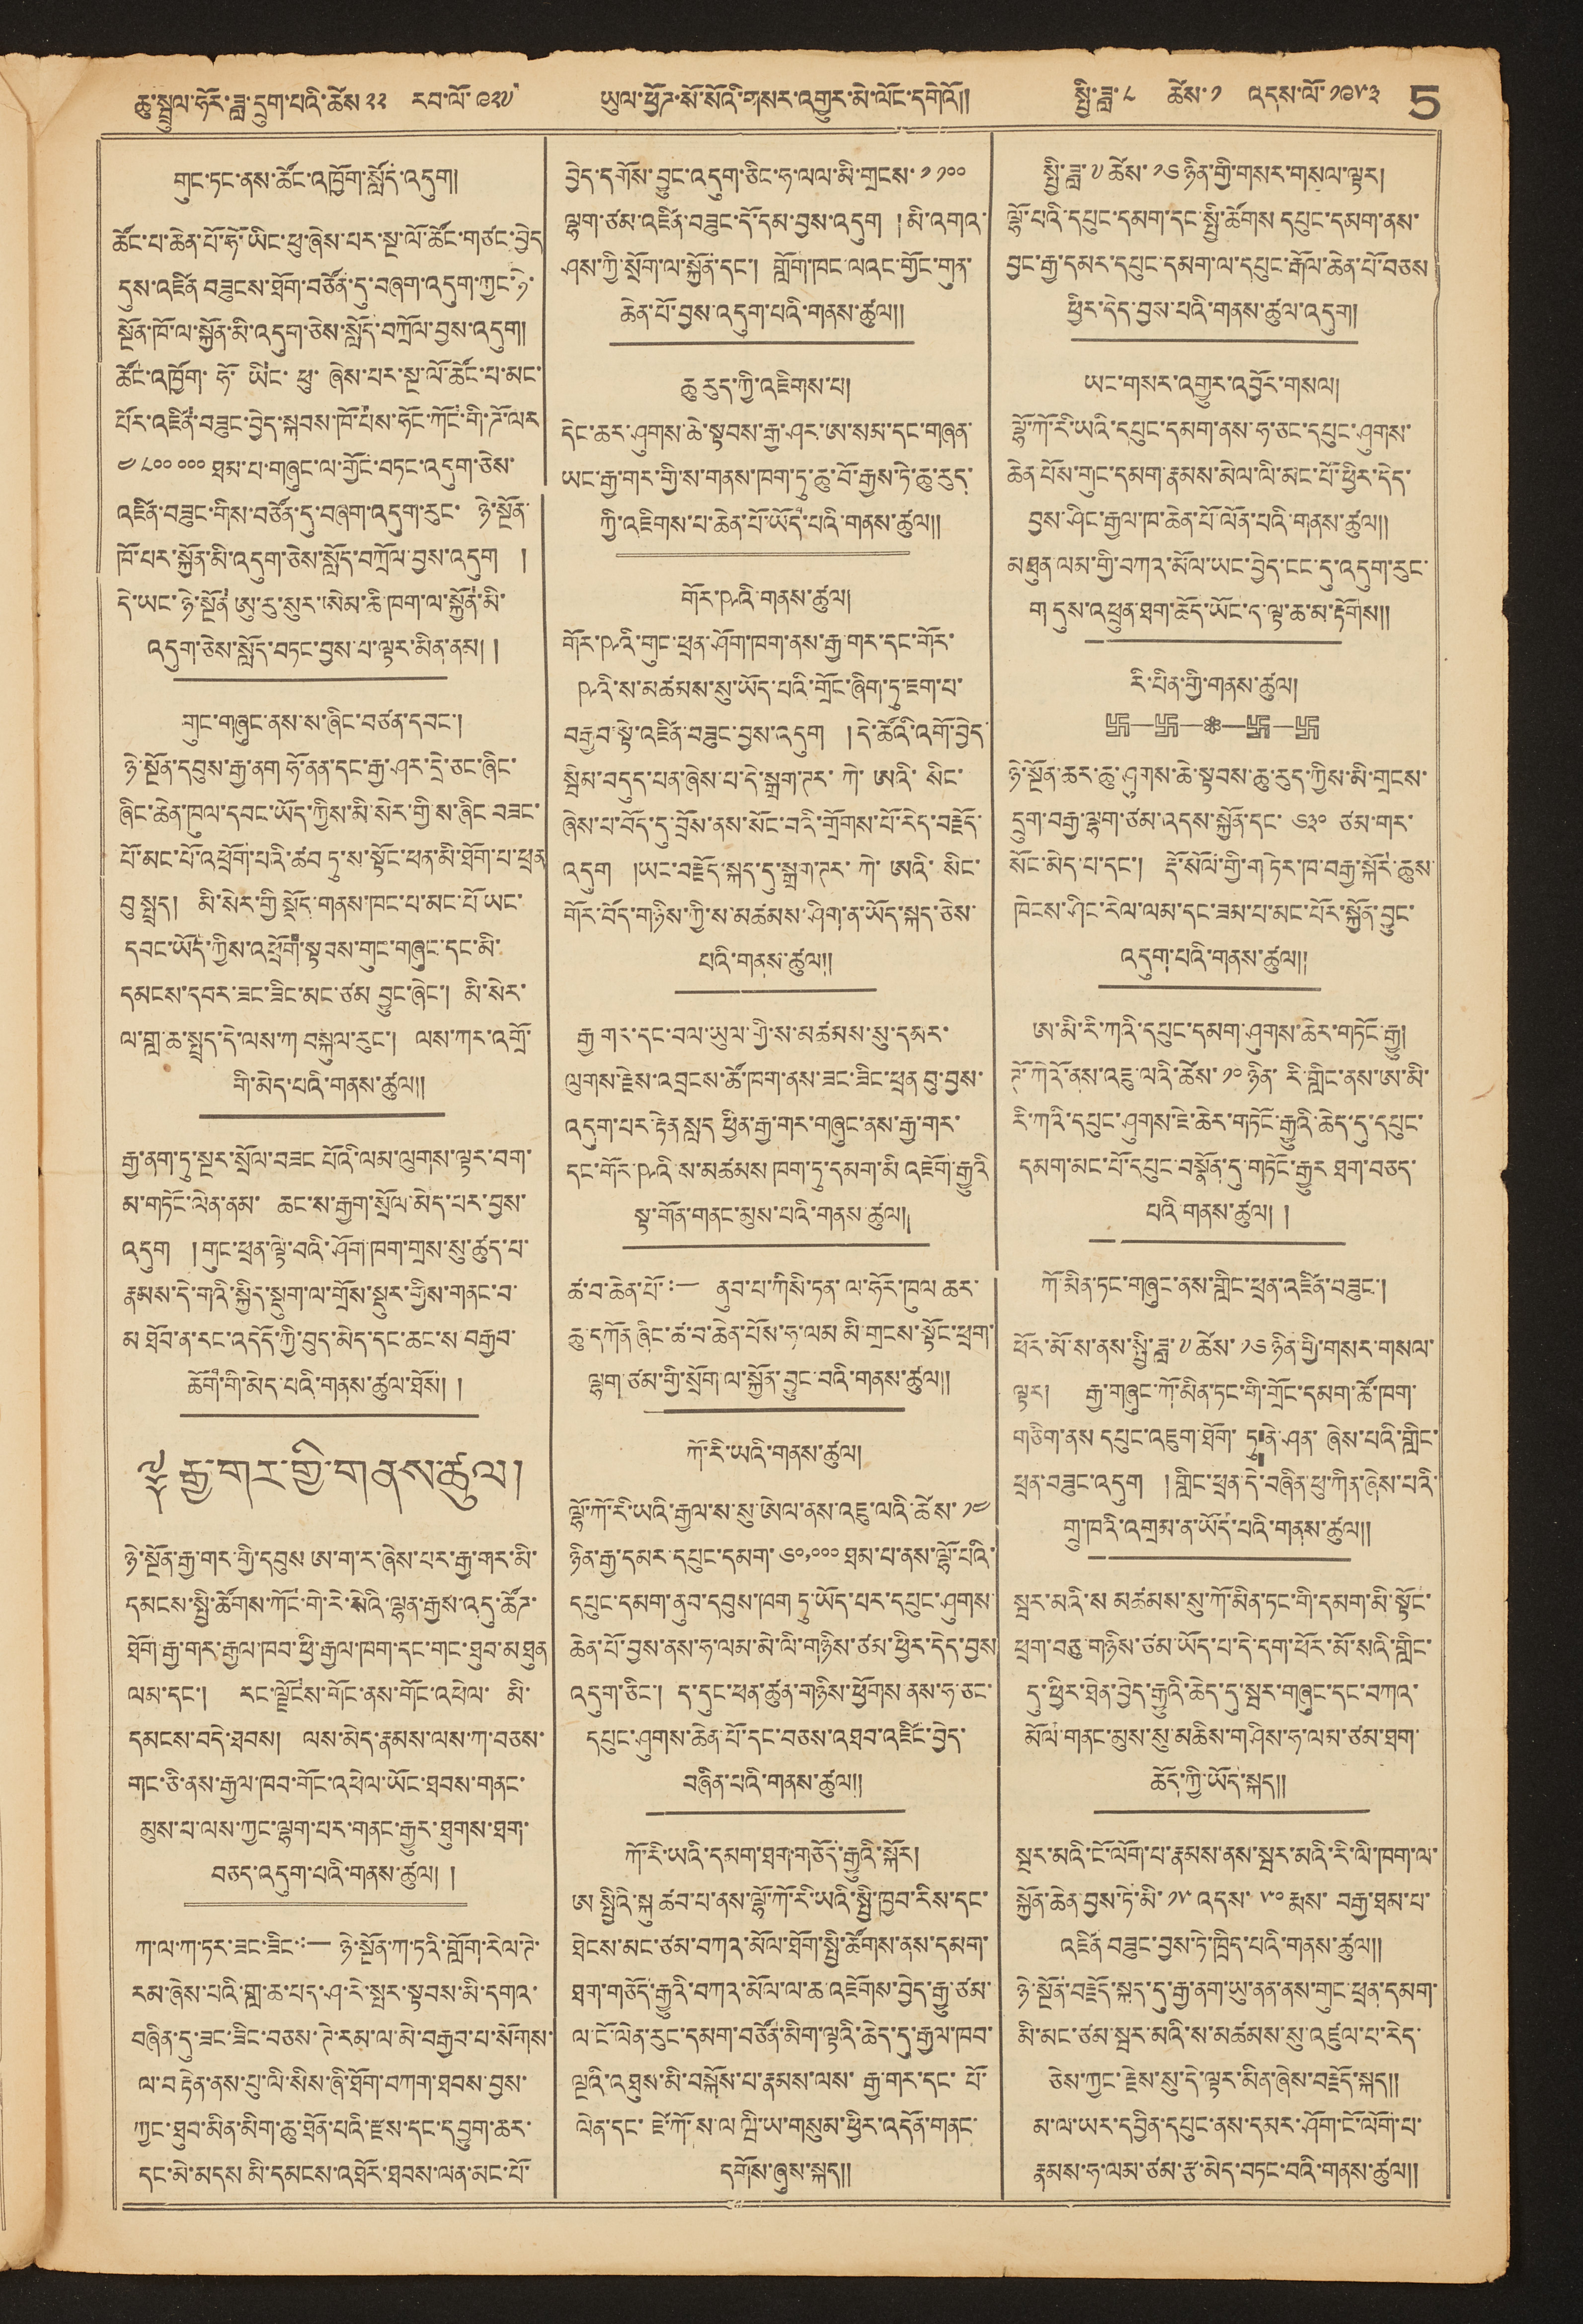ཆུ་སྦྲུལ་ཧོར་ཟླ་དྲུག་པའི་ཚེས་ ༢༢ རབ་ལོ་ ༩༢༧ ཡུལ་ཕྱོཌ་སོ་སོའི་གསར་འགྱུར་མེ་ལོང་དགེའོ།། སྤྱི་ཟླ་༨ ཚེས ༡ འདས་ལོ་༡༩༥༣ 5
གུང་ཏང་ནས་ཚོང་འཁྱོག་སློད་འདུག།།
ཚོང་པ་ཆེན་པོ་ཧོ་ཡིང་ཕུ་ཞེས་པར་སྔ་ལོ་ཚོང་གཙང་བྱེད
དུས་འཛིན བཟུངས་ཐོག་བཙོན་དུ་བཞག་འདུག་ཀྱང་ཉེ་
སྔོན་ཁོ་ལ་སྐྱོན་མི་འདུག་ཅེས་སློད་བཀྲོལ་བྱས་འདུག།།
ཚོང་འཁྱོག་ཧོ་ཡིང་ཕུ་ཞེས་པར་སྔ་ལོ་ཚོང་པ་མང་
པོར་འཛིན་བཟུང་བྱེད་སྐབས་ཁོ་པས་ཧོང་ཀོང་གི་ཌི་ལར
༤༨༠༠༠༠༠ཐམ་པ་གཞུང་ལ་གྱོང་བཏང་འདུག་ཅེས་
འཛིན་བཟུང་གིས་བཙོན་དུ་བཞུག་འདུག་རུང་ ཉེ་སྔོན་
ཁོ་པར་སྐྱོན་མི་འདུག་ཅེས་སློད་བཀྲོལ་བྱས་འདུག །
དེ་ཡང་ཉེ་སྔོན ཨུ་རུ་སུར་ཨེམ་ཆི་ཁག་ལ་སྐྱོན་མི་
འདུག་ཅེས་སློད་བཏང་བྱས་པ་ལྟར་མིན་ནམ།།
གུང་གཞུང་ནས་ས་ཞིང་བཙན་དབང་།
ཉེ་སྔོན་དབུས་རྒྱ་ནག ཧོ་ནན་དང་རྒྱ་ཤར་དྲེ་ཅང་ཞིང་
ཞིང་ཆེན་ཁུལ་དབང་ཡོད་ཀྱིས་མི་སེར་གྱི་ས་ཞིང་བཟང་
པོ་མང་པོ་འཕྲོག་པའི་ཚབ ཏུ་ས་སྟོང་ཕན་མི་ཐོག་པ་ཕྲན
བུ་སྤྲད། མི་སེར་གྱི སྡོད་གནས་ཁང་པ་མང་པོ ཡང་
དབང་ཡོད་ཀྱིས་འཕྲོག་སྟབས་གུང་གཞུང་དང་མི་
དམངས་དབར་ཟང་ཟིང་མང་ཙམ བྱུང་ཞེང་། མི་སེར་
ལ་གླ་ཆ་སྤྲད་དེ་ལས་ཀ བསྐུལ་རུང་། ལས་ཀར་འགྲོ་
གི་མེད་པའི་གནས་ཚུལ།།
རྒྱ་ནག་ཏུ་སྔར་སྲོལ་བཟང པོའི་ལམ་ལུགས་ལྟར་བག་
མ་གཏོང་ལེན་ནམ་ ཆང་ས་རྒྱག་སྲོལ་མེད་པར་བྱས་
འདུག །གུང་ཕྲན་ལྟེ་བའི་ཤོག་ཁག་གྲས་སུ་ཚུད་པ་
རྣམས་དེ་གའི་སྐྱིད་སྡུག་ལ་གྲོས་སྡུར་གྱིས་གནང་བ་
མ་ཐོབ་ན་རང་འདོད་ཀྱི་བུད་མེད་དང་ཆང་ས་བརྒྱབ་
ཆོག་གི་མེད་པའི་གནས་ཚུལ་ཐོས།།
༈ རྒྱ་གར་གྱི་གནས་ཚུལ།
ཉེ་སྔོན་རྒྱ་གར་གྱི་དབུས ཨ་ག་ར་ཞེས་པར་རྒྱ་གར་མི་
དམངས་སྤྱི་ཚོགས་ཀོང་གེ་རེ་སེའི་ལྷན་རྒྱས་འདུ་ཚོཌ་
ཐོག་རྒྱ་གར་རྒྱལ་ཁབ་ཕྱི་རྒྱལ་ཁག་དང་གང་ཐུབ་མཐུན
ལམ་དང་། རང་ལྗོངས་གོང་ནས་གོང་འཕེལ་མི་
དམངས་བདེ་ཐབས། ལས་མེད་རྣམས་ལས་ཀ་བཅས་
གང་ཅི་ནས་རྒྱལ་ཁབ་གོང་འཕེལ་ཡོང་ཐབས་གནང་
མུས་པ་ལས་ཀྱང་ལྷག་པར་གནང་རྒྱུར་ཐུགས་ཐག་
བཅད་འདུག་པའི་གནས་ཚུལ།།
ཀ་ལ་ལ་ཏར་ཟང་ཟིང་:— ཉེ་སྔོན་ཀ་ཏའི་གློག་རེལ་ཌེ་
རམ་ཞེས་པའི་གླ་ཆ་པད་ཤ་རེ་སྤར་སྟབས་མི་དགའ་
བཞིན་དུ་ཟང་ཟིང་བཅས་ཊེ་རམ་ལ་མེ་བརྒྱབ་པ་སོགས་
ལ་བརྟེན་ནས་པུ་ལི་སིས་ཞི་ཐོག་བཀག་ཐབས་བྱས་
ཀྱང་ཐུབ་མིན་མིག་ཆུ་ཐོན་པའི་རྫས་དང་དབྱུག་ཆར་
དང་མེ་མདས་མི་དམངས་འཐོར་ཐབས་ལན་མང་པོ་
བྱེད་དགོས་བྱུང་འདུག་ཅིང་ཧ་ལས་མི་གྲངས་༡༡༠༠
ལྷག་ཙམ་འཛིན་བཟུང་དོ་དམ་བྱས་འདུག །མི་འགའ་
ཤས་ཀྱི་སྲོག་ལ་སྐྱོན་དང་། གློག་ཁང་ལའང་གྱོང་གུན་
ཆེན་པོ་བྱས་འདུག་པའི་གནས་ཚུལ།།
ཆུ་རུད་ཀྱི་འཇིགས་པ།
དེང་ཆར་ཤུགས་ཆེ་སྟབས་རྒྱ་ཤར་ཨ་སམ་དང་གཞན་
ཡང་རྒྱ་གར་གྱི་ས་གནས་ཁག་ཏུ་ཆུ་བོ་རྒྱས་ཏེ་ཆུ་རུད
ཀྱི་འཇིགས་པ་ཆེན་པོ་ཡོད་པའི་གནས་ཚུལ།།
གོར་ཥའི་གནས་ཚུལ།
གོར་ཥའི་གུང་ཕྲན་ཤོག་ཁག་ནས་རྒྱ་གར་དང་གོར་
ཥའི་ས་མཚམས་སུ་ཡོད་པའི་གྲོང་ཞིག་ཏུ་ཇག་པ་
བརྒྱབ་སྟེ་འཛིན་བཟུང་བྱས་འདུག །དེ་ཚོའི་འགོ་བྱེད
སྦིམ་བདུད་པན་ཞེས་པ་དེ་སྒྲག་ཊར་ཀེ་ཨའི་སིང་
ཞེས་པ་བོད་དུ་བྲོས་ནས་སོང་བའི་གྲོགས་པོ་རེད་བརྗོད་
འདུག །ཡང་བརྗོད་སྐད་དུ་སྒྲག་ཊར་ཀེ་ཨའི་སིང་
གོར་བོད་གཉིས་ཀྱི་ས་མཚམས་ཤིག་ན་ཡོད་སྐད་ཅེས་
པའི་གནས་ཚུལ།།
རྒྱ་གར་དང་བལ་ཡུལ་གྱི་ས་མཚམས་སུ་དམར་
ལུགས་རྗེས་འབྲངས་ཚོ་ཁག་ནས་ཟང་ཟིང་ཕྲན བུ་བྱས་
འདུག་པར་རྟེན་སླད ཕྱིན་རྒྱ་གར་གཞུང་ནས་རྒྱ་གར་
དང་གོར་ཥའི་ས་མཚམས ཁག་ཏུ་དམག་མི འཇོག་རྒྱུའི་
ལྟ་གོན་གནང་མུས་པའི་གནས་ཚུལ།།
ཚ་བ་ཆེན་པོ་:— ནུབ་པ་ཀིསི་ཏན་ལ་ཧོར་ཁུལ ཆར་
ཆུ་དཀོན ཞིང་ཚ་བ་ཆེན་པོས་ཧ་ལམ མི་གྲངས་སྟོང་ཕྲག་
ལྷག་ཙམ་གྱི་སྲོག་ལ་སྐྱོན་བྱུང་བའི་གནས་ཚུལ།།
ཀོ་རི་ཡའི་གནས་ཚུལ།
ལྷོ་ཀོ་རི་ཡའི་རྒྱལ་ས་སུ་ཨེལ་ནས་ལའི་ཚེས་༡༤
ཉིན་རྒྱ་དམར་དཔུང་དམག་ ༦༠,༠༠༠ ཐམ་པ་ནས་ལྷོ་པོའི་
དཔུང་དམག་ནུབ་དབུས་ཁག ཏུ་ཡོད་པར་དཔུང་ཤུགས་
ཆེན་པོ་བྱས་ནས་ཧ་ལམ་མི་ཚེ་གཉིས་ཙམ་ཕྱིར་དེད་བྱས་
འདུག་ཅིང་། ད་དུང་ཕན་ཚུལ་གཉིས་ཕྱོགས་ནས་ཧ་ཅང་
དཔུང་ཤུགས་ཆེན་པོ་དང་བཅས་འཐབ་འཛིང་བྱེད་
བཞིན་པའི་གནས་ཚུལ།།
ཀོ་རི་ཡའི་དམག་ཐག་གཅོད་རྒྱུའི་སྐོར།
ཨ སྤྱིའི་སྐུ ཚབ་པ་ནས་ལྷོ་ཀོ་རི་ཡའི་སྤྱི་ཁྱབ་རིས་དང་
ཐེངས་མང་ཙམ་བཀའ་མོལ་ཐོག་སྤྱི་ཚོགས་ནས་དམག་
ཐག་གཅོད་རྒྱུའི་བཀའ་མོལ་ལ་ཆ་འཇོགས་བྱེད་རྒྱུ་ཙམ་
ལ་ངོ་ལེན་རུང་དམག་བཙོན་མིག་ལྟའི་ཆེད་དུ་རྒྱལ་ཁབ་
ལྔའི་འཐུས་མི་བསྐོས་པ་རྣམས་ལས་རྒྱ་གར་དང་པོ་
ལེན་དང་ཛེ་ཀོ་ས་ལ ཝི་ཡ་གསུམ་ཕྱིར་འདོན་གནང་
དགོས་ཞུས་སྐད།།
སྤྱི་ཟླ་༧ ཚེས་༡༦ཉིན་གྱི་གསར་གསལ་ལྟར།
ལྷོ་པའི་དཔུང་དམག་དང་སྤྱི་ཚོགས དཔུང་དམག་ནས་
བྱང་རྒྱ་དམར་དཔུང་དམག་ལ་དཔུང་རྒོལ་ཆེན་པོ་བཅས
ཕྱིར་དེད་བྱས་པའི་གནས་ཚུལ་འདུག།།
ཡང་གསར་འགྱུར་འབྱོར་གསལ།
ལྷོ་ཀོ་རི་ཡའི་དཔུང་དམག་ནས་ཧ་ཅང་དཔུང་ཤུགས་
ཆེན་པོས་གུང་དམག་རྣམས་མེལ་ལི་མང་པོ་ཕྱིར་དེད་
བྱས་ཤིང་རྒྱལ་ཁ་ཆེན་པོ་ལོན་པའི་གནས་ཚུལ།།
མཐུན་ལམ་གྱི་བཀའ་མོལ་ཡང་བྱེད་ངང་དུ་འདུག་རུང་
ག་དུས་འཕྲུན་ཐག་ཆོད་ཡོང་ད་ལྟ་ཆ་མ་རྟོགས།།
རི་པིན་གྱི་གནས་ཚུལ།
ཉེ་སྔོན་ཆར་ཆུ་ཤུགས་ཆེ་སྟབས་ཆུ་རུད་ཀྱིས་མི་གྲངས་
དྲུག་བརྒྱ་ལྷག་ཙམ་འདས་སྐྱོན་དང་ ༦༣༠ ཙམ་གར་
སོང་མེད་པ་དང་། རྡོ་སོལ་གྱི་གཏེར་ཁ་བརྒྱ་སྐོར་ཆུས་
ཁེངས་ཤིང་རེལ་ལམ་དང་ཟམ་པ་མང་པོར་སྐྱོན་བྱུང་
འདུག་པའི་གནས་ཚུལ།།
ཨ་མི་རི་ཀའི་དཔུང་དམག་ཤུགས་ཆེར་གཏོང་རྒྱུ།
ཊོ་ཀེའོ་ནས་འཇུ་ལའི་ཚེས་ ༡༠ ཉིན་རི་གླིང་ནས་ཨ་མི་
རི་ཀའི་དཔུང་ཤུགས་ཇེ་ཆེར་གཏོང་རྒྱུའི་ཆེད་དུ་དཔུང་
དམག་མང་པོ་དཔུང་བསྣོན་དུ་གཏོང་རྒྱུར ཐག་བཅད་
པའི གནས་ཚུལ།།
ཀོ་མིན་ཏང་གཞུང་ནས་གླིང་ཕྲན་འཛིན་བཟུང་།
ཕོར་མོ་ས་ནས་སྤྱི་ཟླ་༧ཚེས་ ༡༦ ཉིན་གྱི་གསར་གསལ་
ལྟར། རྒྱ་གཞུང་ཀོ་མིན་ཏང་གི་གྲོང་དམག་ཚོ་ཁག་
གཅིག་ནས་དཔུང་འཇུག་ཐོག ཏུ ནེ་ཤན་ཞེས་པའི་གླིང་
ཕྲན་བཟུང་འདུག །གླིང་ཕྲན་དེ་བཞིན་ཕུ་ཀིན་ཞེས་པའི་
གྲུ་ཁའི་འགྲམ་ན་ཡོད་པའི་གནས་ཚུལ།།
སྦར་མའི་ས་མཚམས་སུ་ཀོ་མིན་ཏང་གི་དམག་མི་སྟོང་
ཕྲག་བཅུ་གཉིས་ཙམ་ཡོད་པ་དེ་དག་ཕོར་མོ་སའི་གླིང་
དུ་ཕྱིར་ཐེན་བྱེད་རྒྱུའི་ཆེད་དུ་སྦར་གཞུང་དང་བཀའ་
མོལ་གནང་མུས་སི་མཆིས་གཤིས་ཧ་ལམ་ཙམ་ཐག་
ཆོད་ཀྱི་ཡོད་སྐད།།
སྦར་མའི་ངོ་ལོག་པ་རྣམས་ནས་སྦར་མའི་རི་ལི་ཁག་ལ་
སྐྱོན་ཆེན་བྱས་ཏེ་མི་ ༡༥ འདས་ ༥༠ རྨས་བརྒྱ་ཐམ་པ་
འཛིན་བཟུང་བྱས་ཏེ་ཁྲིད་པའི་གནས་ཚུལ།།
ཉེ་སྔོན་བརྗོད་སྐད་དུ་རྒྱ་ནག་ཡུ་ནན་ནས་གུང་ཕྲན་དམག་
མི་མང་ཙམ་སྦར་མའི་ས་མཚམས་སུ་འཛུལ་པ་རེད་
ཅེས་ཀྱང་རྗེས་སུ་དེ་ལྟར་མིན་ཞེས་བརྗོད་སྐད།།
མ་ལ་ཡར་དབྱིན་དཔུང་ནས་དམར་ཤོག་ངོ་ལོག་པ་
རྣམས་ཧ་ལམ་ཙམ་རྩ་མེད་བཏང་བའི་གནས་ཚུལ།།
